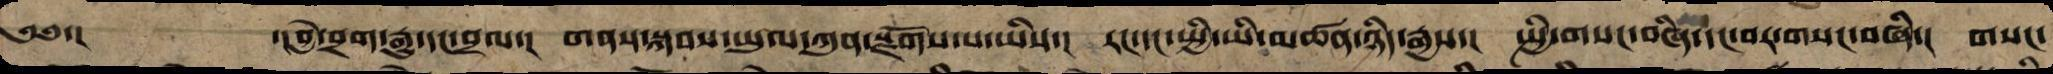༄༅་། ་།བྱེ་བྲག་རྒྱུ་དང་བྲལ་། གནས་སྐབས་ཡུལ་ཀུན་སྫོགས་པ་ཡིས་། རང་དང་སྤྱི་ཡི་མཚན་ཉིད་རྒྱས་། སྤྱི་གསང་བཞི་དང་བར་གསང་བཞི་། གསང་
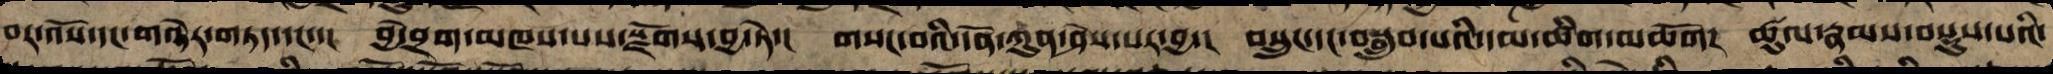བར་འོས་དང་གཉེར་གཏད་དང་་ བྱེ་བྲག་མཁས་པས་སྫོགས་བྱ་སྟེ་། གསང་བའི་དོན་ཀུན་ཤེས་པར་བྱ་། བསྲུང་དང་བསྒྲུབ་པའི་དམ་ཚིག་མཆོག། ཚུལ་རྣམས་བསྡུས་པའི་
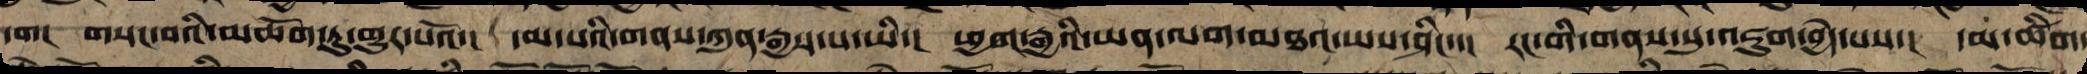དག། གསང་བའི་མཆོག་ཏུ་གྱུར་པའོ་། དམ་པའི་གནས་ཀུན་རྒྱས་པ་ཡི་། ཕྱག་རྒྱའི་ཡན་ལག་མཐའ་ཡས་ཤིང་་། རང་གི་གནས་སུ་འཇུག་བྱེད་པས་། དམ་ཚིག་
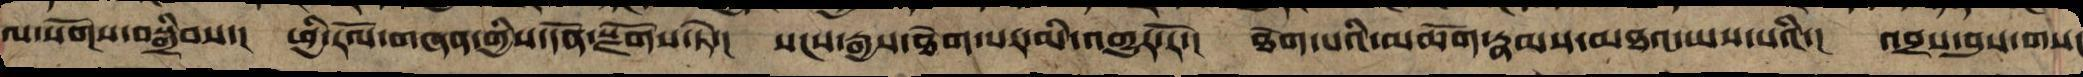ལ་སོགས་བསྒྲིབས་། ཕྱི་རོལ་གཞན་གྱི་དོན་སྫོགས་ཏེ་། སངས་རྒྱས་ཐེག་པར་མི་འགྱུར་རོ་། ཐེག་པའི་མཆོག་རྣམས་མཐའ་ཡས་པའི་། འབྲས་བུ་གསང
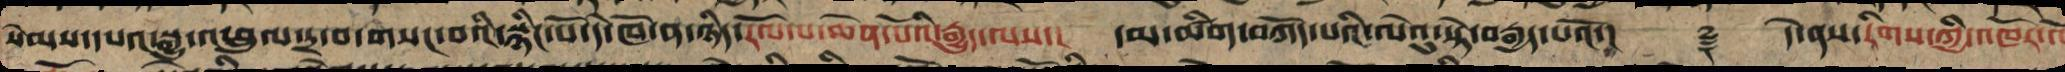སེམས་དཔའ་སྒྱུ་འཕྲུལ་དྲ་བ་གསང་བའི་སྙིང་པོ་དེ་ཁོ་ན་ཉིད་རོལ་པ་ཆེན་པོའི་རྒྱུད་ལས་། དམ་ཚིག་བཀོད་པའི་ལེའུ་སྟེ་བརྒྱད་པའོ་།། ༈ དེ་ནས་རིགས་ཀྱི་འཁོར་ལོ
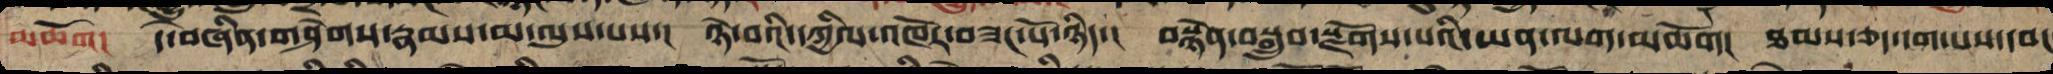མཆོག། དེ་བཞིན་གཤེགས་རྣམས་མ་ལུས་པས་། ཉེ་བའི་དཀྱིལ་འཁོར་བཟང་པོ་ཉིད་། བསྙེན་བསྒྲུབ་སྫོགས་པའི་ཡན་ལག་མཆོག། ཐམས་ཅད་དག་པས་དབང
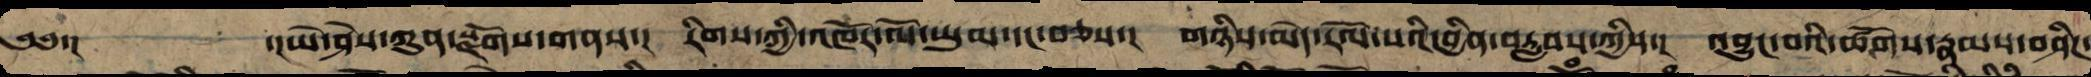༄༅་། ་།ཡེ་ཤེས་ཀུན་སྫོགས་གནས་། རིགས་ཀྱི་འཁོར་ལོ་ཡུམ་དང་བཅས་། གཉིས་མེད་རོལ་པའི་བྱིན་བརླབས་ཀྱིས་། འབྱུང་བའི་ཚོགས་རྣམས་བཤིཌ་
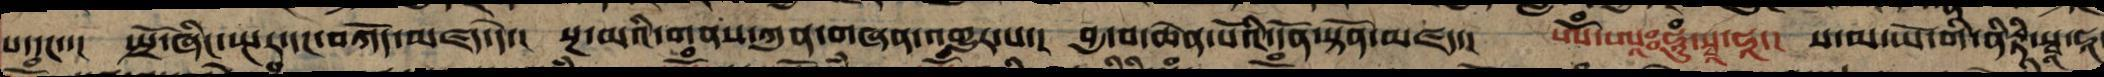པ་དང་་། སྤྲོ་ཞིང་སྤར་དང་བཀོད་མཛད་དེ་། སྔ་མའི་གནས་ཀུན་གཞན་འགྱུར་བར་། བྱ་བ་ཆེན་པོའི་དོན་སྟོན་མཛད་། ཨོཾ་ཨཱཿཧཱུྃ་སྭཱ་ཧཱ་། ས་མ་ཡོ་གི་ནིརྟི་སྭཱ་ཧཱ
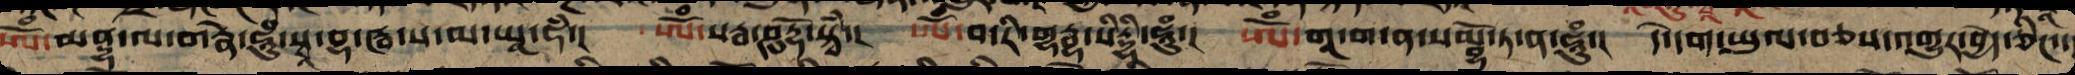ཨོཾ་མནྡྷ་ལ་གརྣེ་ཧཱུྃ་སྭ་བྷཱ་ཝ་ས་མ་ཡཱ་ཧཾ་། ཨོཾ་སརྦ་ཤུདྡྷོ་སྟྭཾ་།། ཨོཾ་བ་རི་གརྦྷ་སིདྡྷི་ཧཱུྃ་། ཨོཾ་གཱ་ག་ན་སམྦྷོ་ཏ་ན་ཧཱུྃ་། དེ་དག་ཡུལ་བཅས་འགྱུར་བྱེད་ཅིང་་
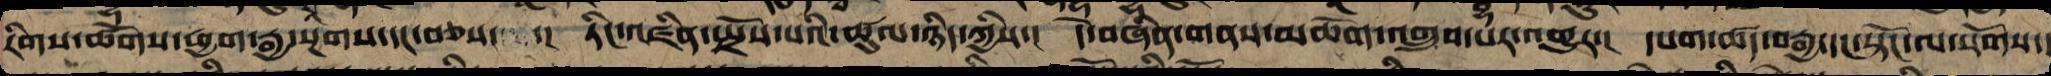རིགས་ཚོགས་ཕྱག་རྒྱ་སྔགས་དང་བཅས་། ཏིང་འཛིན་སྤྲོས་པའི་ཚུལ་ཉིད་ཀྱིས་། དེ་ཉིད་གནས་མཆོག་འགྲུབ་པར་འགྱུར་། དཔག་ཚད་བརྒྱ་དང་སྟོང་ལ་སོགས་།
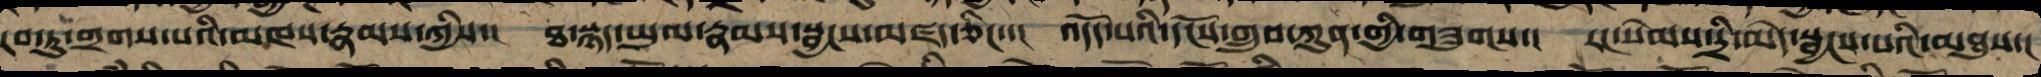རབ་ཏུ་གྲགས་པའི་མཁས་རྣམས་ཀྱིས་། ཐ་སྙད་ཡུལ་རྣམས་སྦྱོང་མཛད་ཅིང་་། འདོད་པའི་དངོས་གྲུབ་ཀུན་གྱིས་གཟུགས་། རང་སེམས་དྲི་མེད་སྦྱངས་པའི་མཐུས་།
